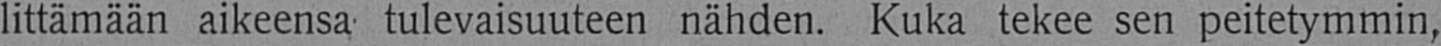littämään aikeensa tulevaisuuteen nähden. Kuka tekee sen peitetymmin,
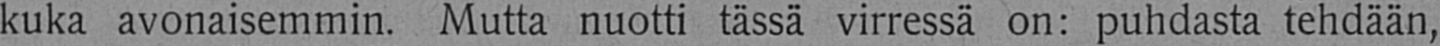kuka avonaisemmin. Mutta nuotti tässä virressä on: puhdasta tehdään,
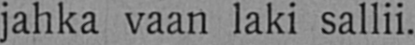jahka vaan laki sallii.
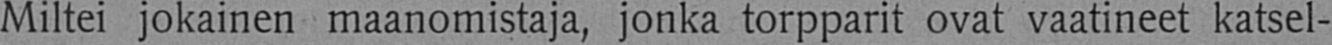Miltei jokainen maanomistaja, jonka torpparit ovat vaatineet katsel-
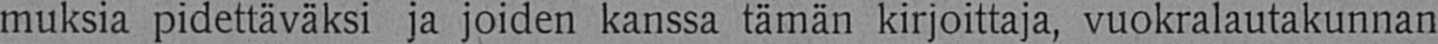muksia pidettäväksi ja joiden kanssa tämän kirjoittaja, vuokralautakunnan
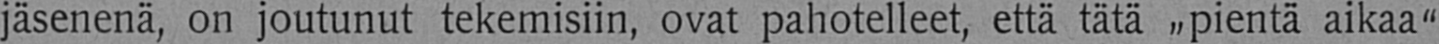jäsenenä, on joutunut tekemisiin, ovat pahotelleet, että tätä „pientä aikaa"
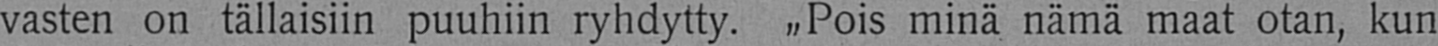vasten on tällaisiin puuhiin ryhdytty. „Pois minä nämä maat otan, kun
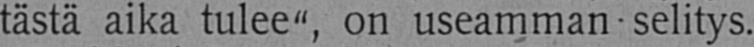tästä aika tulee", on useamman selitys.
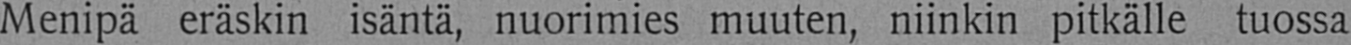Menipä eräskin isäntä, nuorimies muuten, niinkin pitkälle tuossa
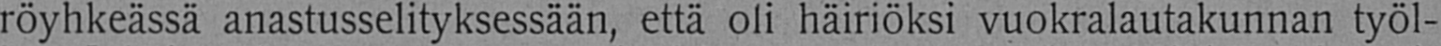röyhkeässä anastusselityksessään, että oli häiriöksi vuokralautakunnan työl-
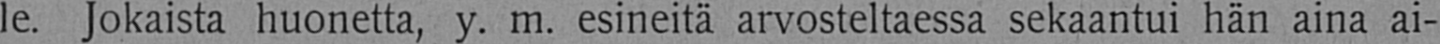le. Jokaista huonetta, y. m. esineitä arvosteltaessa sekaantui hän aina ai-
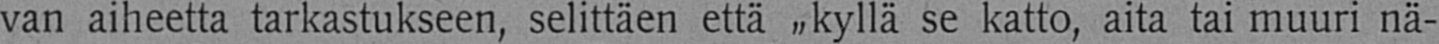van aiheetta tarkastukseen, selittäen että „kyllä se katto, aita tai muuri nä-
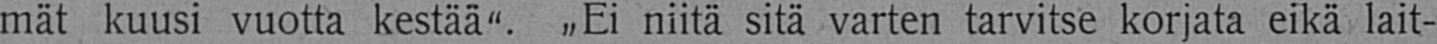mät kuusi vuotta kestää". „Ei niitä sitä varten tarvitse korjata eikä lait-
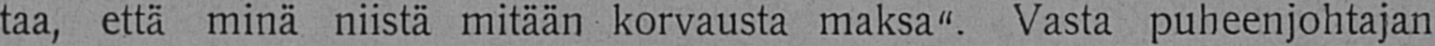taa, että minä niistä mitään korvausta maksa". Vasta puheenjohtajan
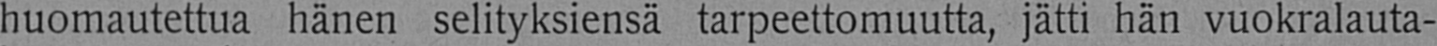huomautettua hänen selityksiensä tarpeettomuutta, jätti hän vuokralauta-
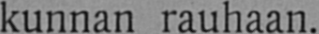kunnan rauhaan.
